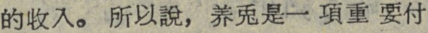的收入。所以說，养兎是一項重要付
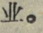业。
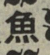魚
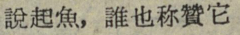說起魚，誰也称贊它
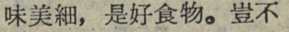味美細，是好食物。豈不
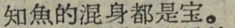知魚的混身都是宝。
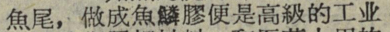魚尾，做成魚鱗膠便是高級的工业
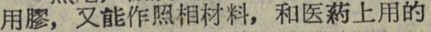用膠，又能作照相材料，和医葯上用的
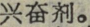兴奋剂。
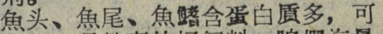魚头、魚尾、魚鰭含蛋白貭多，可
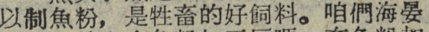以制魚粉，是牲畜的好飼料。咱們海晏
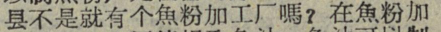县不是就有个魚粉加工厂嗎？在魚粉加
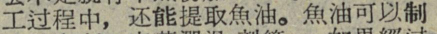工过程中，还能提取魚油。魚油可以制
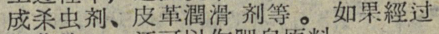成杀虫剂、皮革潤滑剂等。如果經过
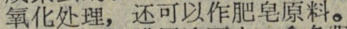氧化处理，还可以作肥皂原料。
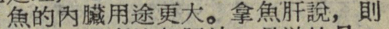魚的內臟用途更大。拿魚肝說，則
